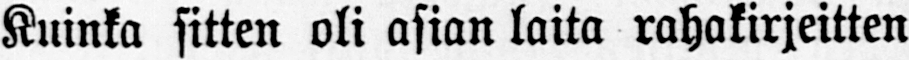Kuinka sitten oli asian laita rahakirjeitten
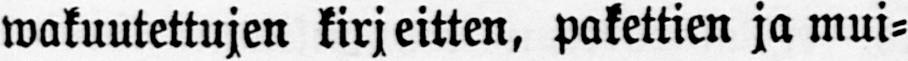wakuutettujen kirjeitten, pakettien ja mui-
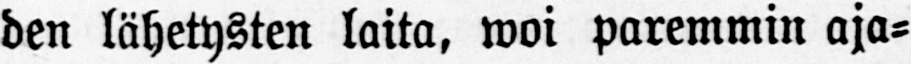den lähetysten laita, woi paremmin aja-
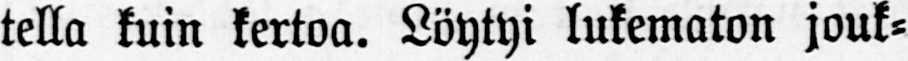tella kuin kertoa. Löytyi lukematon jouk-
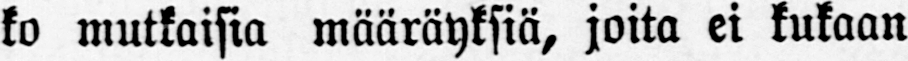ko mutkaisia määräyksiä, joita ei kukaan
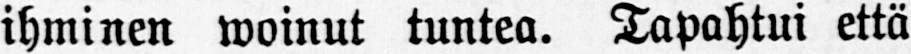ihminen woinut tuntea. Tapahtui että
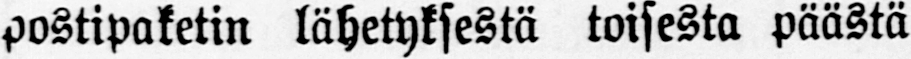postipaketin lähetyksestä toisesta päästä
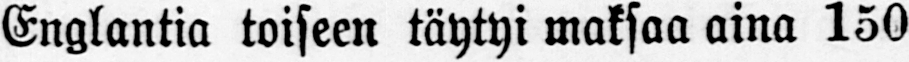Englantia toiseen täytyi maksaa aina 150
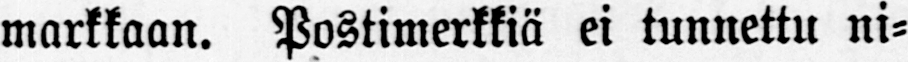markkaan. Postimerkkiä ei tunnettu ni-
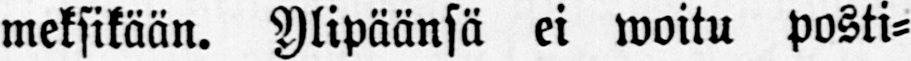meksikään. Ylipäänsä ei woitu posti-
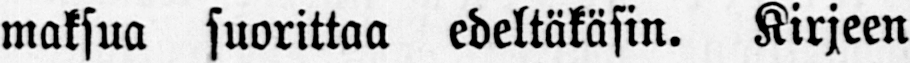maksua suorittaa edeltäkäsin. Kirjeen
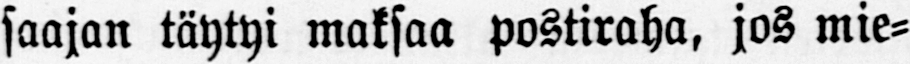saajan täytyi maksaa postiraha, jos mie-
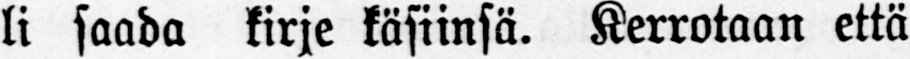li saada kirje käsiinsä. Kerrotaan että
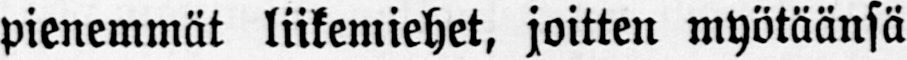pienemmät liikemiehet, joitten myötäänsä
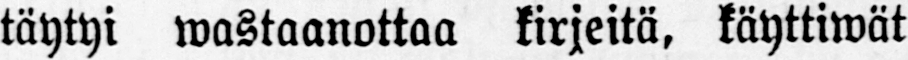täytyi wastaanottaa kirjeitä, käyttiwät
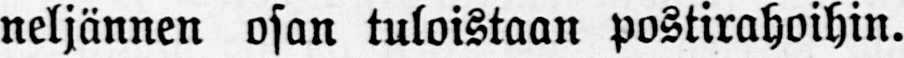neljännen osan tuloistaan postirahoihin.
